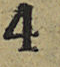4
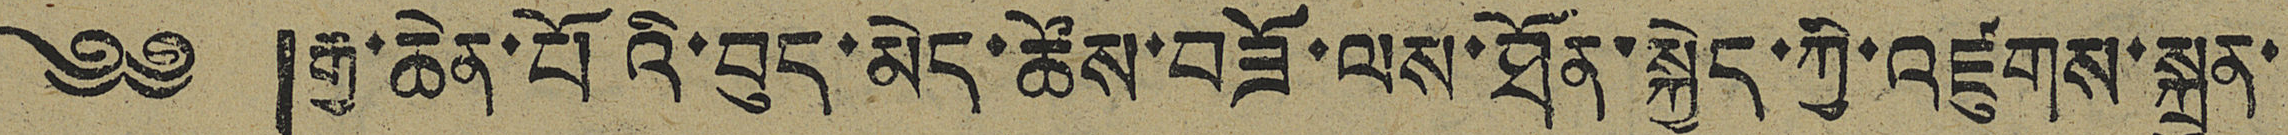༄༅ །རྒྱ་ཆེན་པོའི་བུད་མེད་ཚོས་བཟོ་ལས་ཐོན་སྐྱེད་ཀྱི་འཛུགས་སྐྲུན་
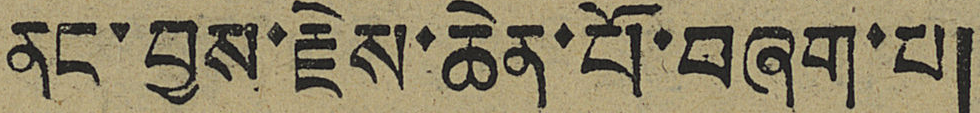ནང་བྱས་རྗེས་ཆེན་པོ་བཞག་པ།
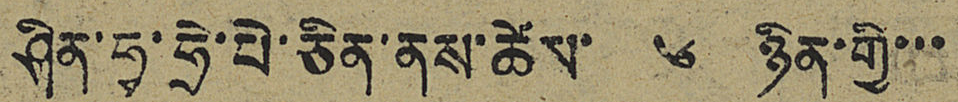ཤིན་ཧྭ་ཧྲེ་པེ་ཅིན་ནས་ཚོས་ ༦ ཉིན་གྱི་་་
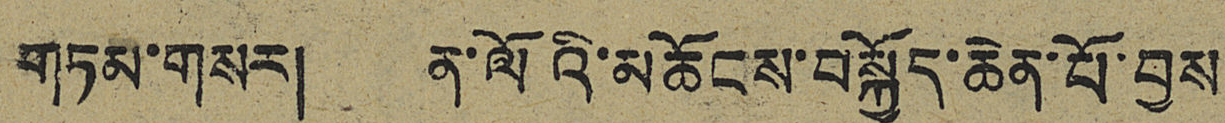གཏམ་གསར། ན་ལོའི་མཆོངས་བསྐྱོད་ཆེན་པོ་བྱས
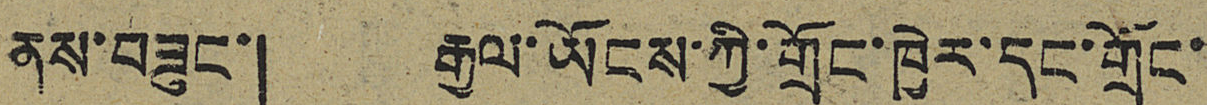ནས་བཟུང་། རྒྱལ་ཡོངས་ཀྱི་གྲོང་ཁྱེར་དང་གྲོང་
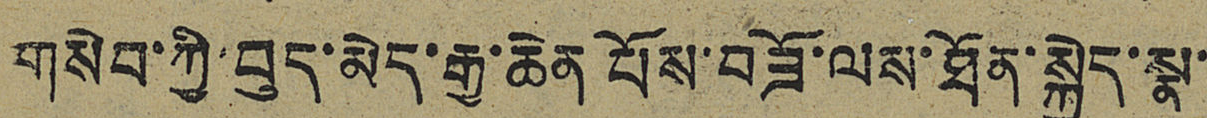གསེབ་ཀྱི་བུད་མེད་རྒྱ་ཆེན པོས་བཟོ་ལས་ཐོན་སྐྱེད་སྣ་
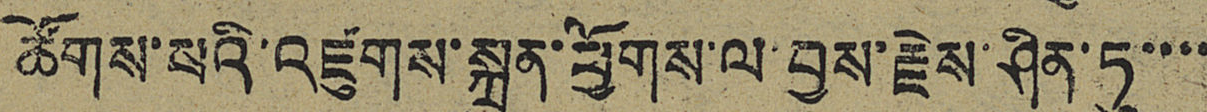ཚོགས་པའི་འཛུགས་སྐྲུན་ཕྱོགས་ལ་བྱས་རྗེས་ཤིན་ཏུ་་་་
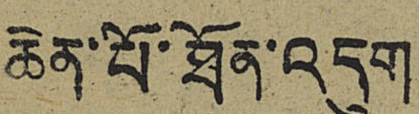ཆེན་པོ་ཐོན་འདུག
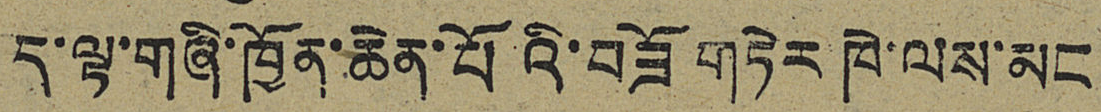ད་ལྟ་གཞི་ཁྱོན་ཆེན་པོའི་བཟོ གཏེར ཁེ་ལས་མང
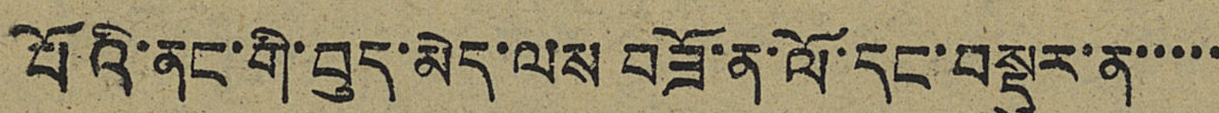པོའི་ནང་གི་བུད་མེད་ལས་བཟོ་ན་ལོ་དང་བསྡུར་ན་་་་་
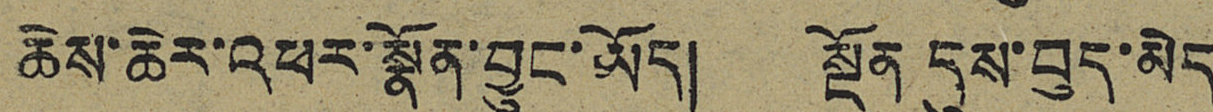ཆེས་ཆེར་འཕར་སྣོན་བྱུང་ཡོད། སྔོན དུས་བུད་མེད
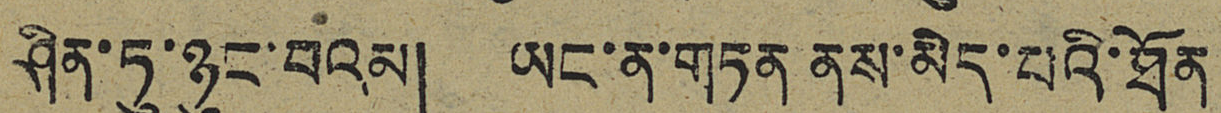ཤིན་ཏུ་ཉུང་བའམ། ཡང་ན་གཏན་ནས་མེད་པའི་ཐོན
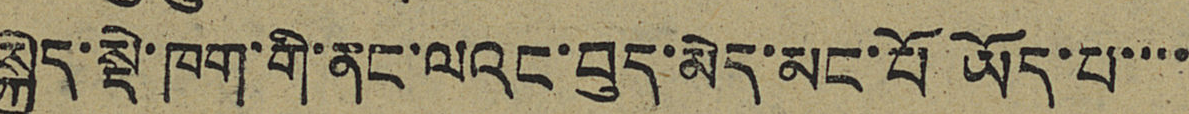སྐྱེད་སྡེ་ཁག་གི་ནང་ལའང་བུད་མེད་མང་པོ ཡོད་པ་་་་
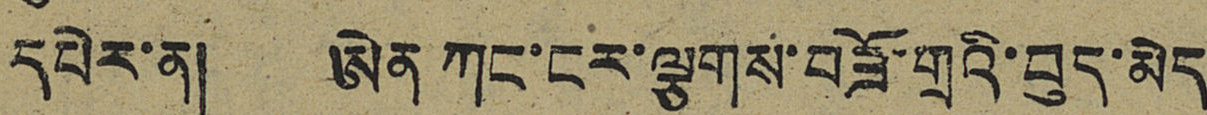དཔེར་མ། ཨེན ཀང་ངར་ལྕགས་བཟོ་གྲའི་བུད་མེད
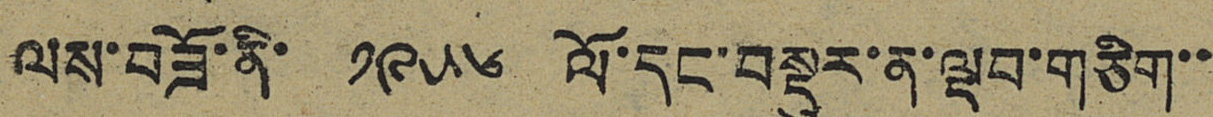ལས་བཟོ་ནི་ ༡༩༥༦ ལོ་དང་བསྡུར་ན་ལྡབ་གཅིག་་
